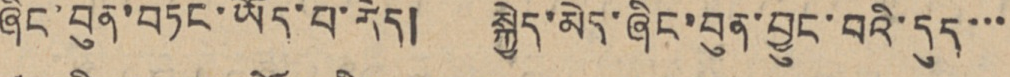ཞིང་བུན་བཏང་ཡོད་པ་རེད། སྐྱེད་མེད་ཞིང་བུན་བྱུང་བའི་དུད་་་
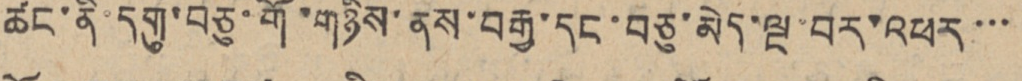ཚང་ནི་དགུ་བཅུ་གོ་གཉིས་ནས་བརྒྱ་དང་བཅུ་མེད་ལྔ་བར་འཕར་་་
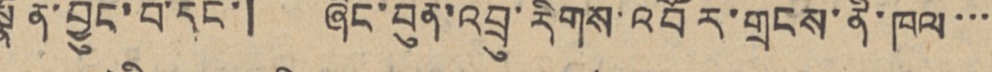སྣོན་བྱུང་བ་དང་། ཞིང་བུན་འབྲུ་རིགས་འབོར་གྲངས་ནི་ཁལ་་་
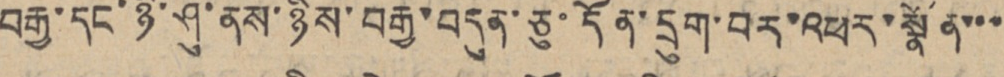བརྒྱ་དང་ཉི་ཤུ་ནས་ཉིས་བརྒྱ་བདུན་ཅུ་དོན་དྲུག་བར་འཕར་སྣོན་་་
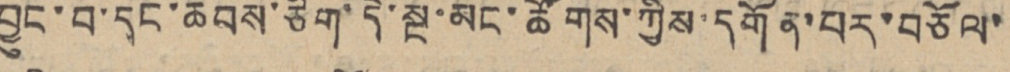བྱུང་བ་དང་ཆབས་ཅིག་དེ་སྔ་མང་ཚོགས་ཀྱིས་དགོན་པར་བཅོལ་
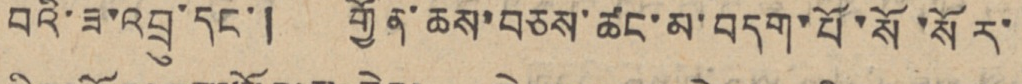བའི་ཟ་འབྲུ་དང་། གྱོན་ཆས་བཅས་ཚང་མ་བདག་པོ་སོ་སོར་
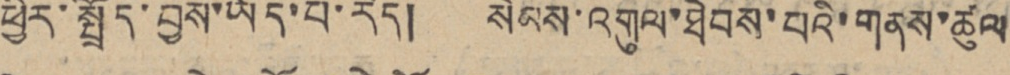ཕྱིར་སྤྲོད་བྱས་ཡོད་པ་རེད། སེམས་འགུལ་ཐེབས་པའི་གནས་ཚུལ
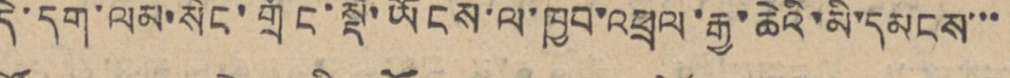དེ་དག་ལམ་སེང་གྲོང་སྡེ་ཡོངས་ལ་ཁྱབ་འཕྲལ་རྒྱ་ཆེའི་མི་དམངས་་་
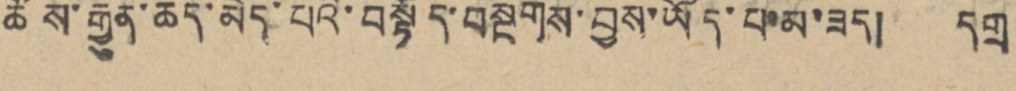ཚོས་རྒྱུན་ཆད་མེད་པའི་བསྟོད་བསྔགས་བྱས་ཡོད་པ་མ་ཟད། དགྲ
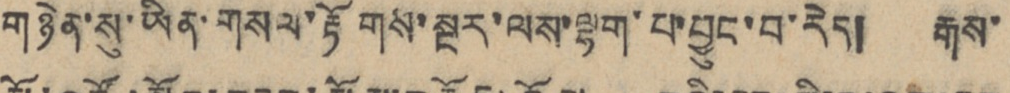གཉེན་སུ་ཡིན་གསལ་རྟོགས་སྔར་ལས་ལྷག་པ་བྱུང་བ་རེད། རྒས་
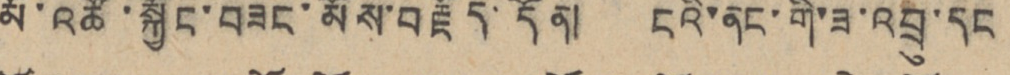མོ་འཚོ་སྐྱོང་བཟང་མོས་བརྗོད་དོན། ངའི་ནང་གི་ཟ་འབྲུ་དང
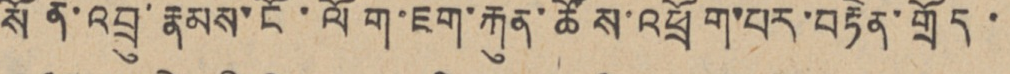སོན་འབྲུ་རྣམས་ངོ་ལོག་ཇག་རྐུན་ཚོས་འཕྲོག་པར་བརྟེན་གྲོད་
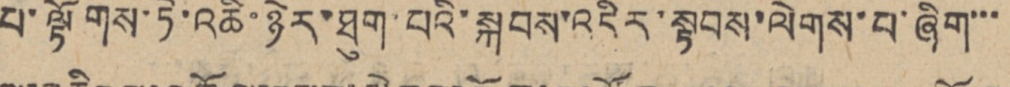པ་ལྟོགས་ཏེ་འཆི་ཉེར་ཐུག་པའི་སྐབས་འདིར་སྟབས་ལེགས་པ་ཞིག་་་
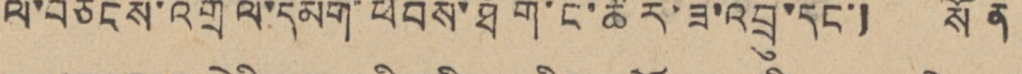ལ་བཅིངས་འགྲོལ་དམག་ཕེབས་ཐོག་ང་ཚོར་ཟ་འབྲུ་དང་། སོན
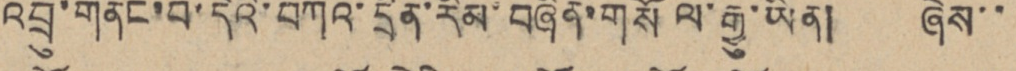འབྲུ་གནང་བ་དེའི་བཀའ་དྲིན་རིམ་བཞིན་གསོལ་རྒྱུ་ཡིན། ཞེས་་
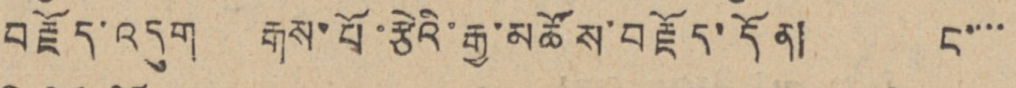བརྗོད་འདུག རྒས་པོ་རྩེའི་རྒྱ་མཚོས་བརྗོད་དོན། ང་་་་
